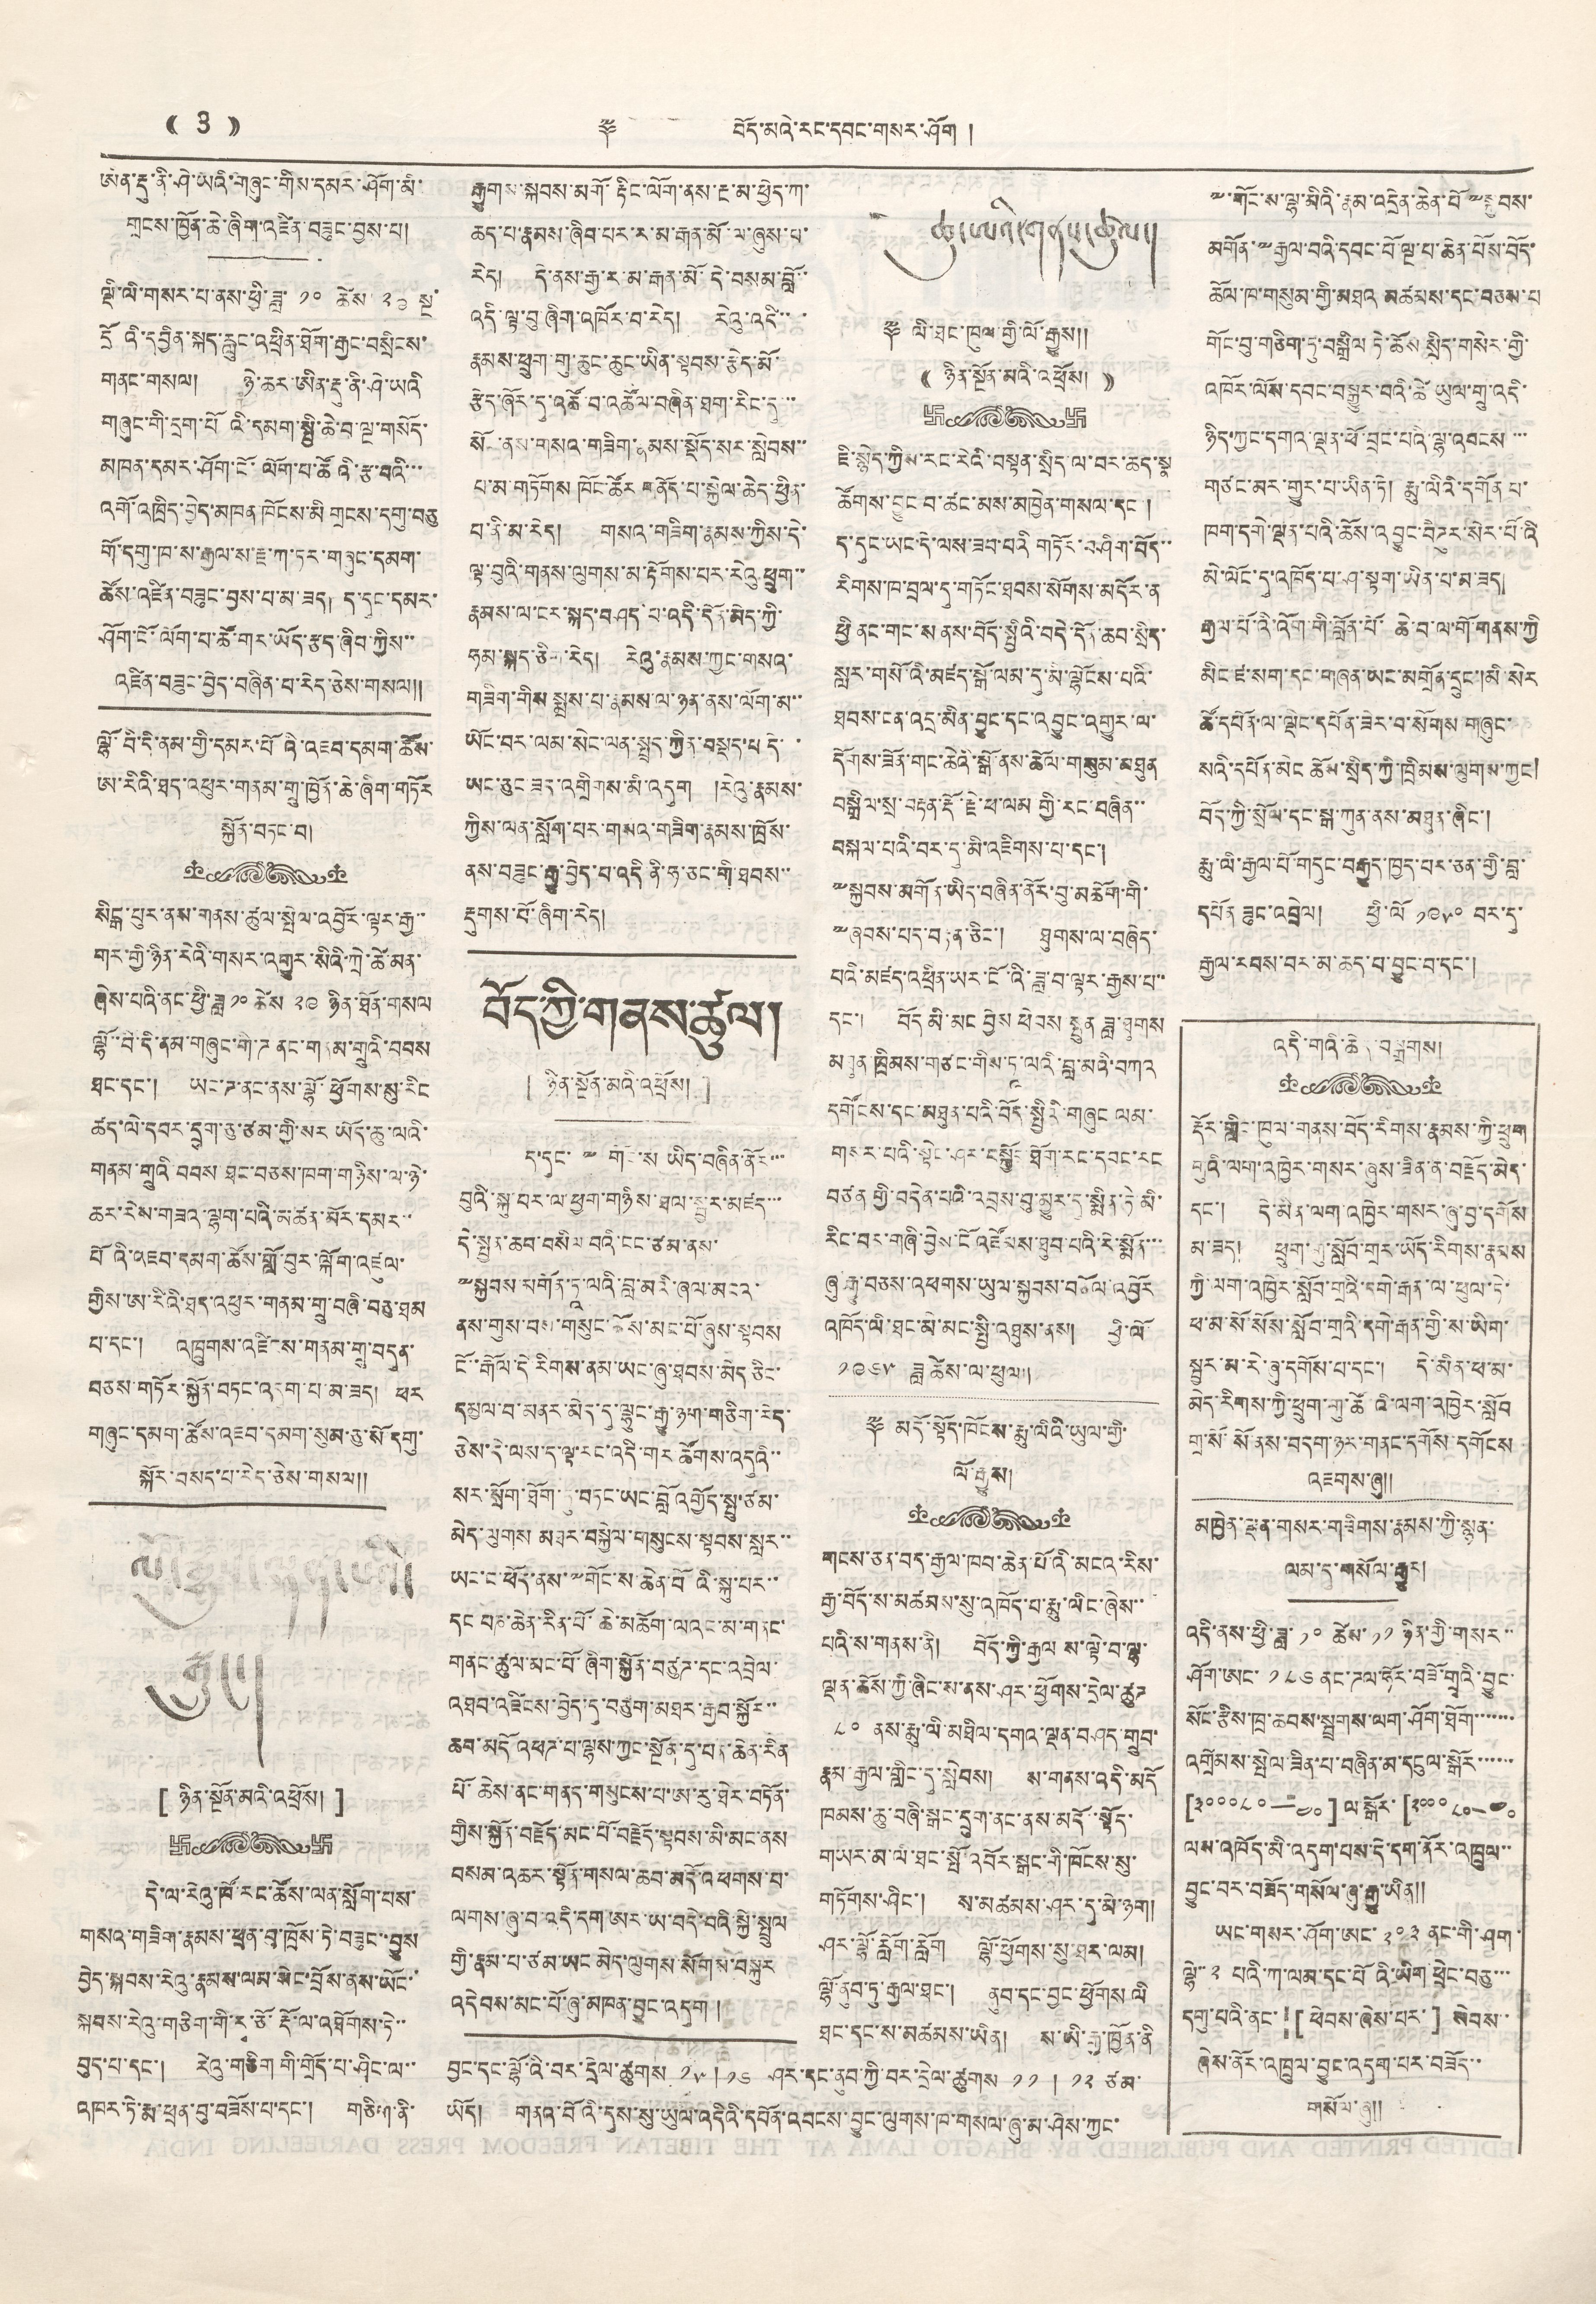(( 3 )) ༈ བོད་མིའི་རང་དབང་གསར་ཤོག །
(( 3 )) ༈ བོད་མིའི་རང་དབང་གསར་ཤོག །
ཨིན་རྡུ་ནི་ཤ་ཡའི་གཞུང་གིས་དམར་ཤོག་མི་
གྲངས་ཁྱོན་ཆེ་ཞིག་འཛིན་བཟུང་བྱས་པ།
ལྡི་ལི་གསར་པ་ནས་ཕྱི་ཟླ་ ༡༠ ཚེས་ ༢༠ སྔ་
དྲོ འི་དབྱིན་སྐད་རླུང་འཕྲིན་ཐོག་རྒྱང་བསྲིངས་
གནང་གསལ། ཉེ་ཆར་ཨིན་རྡུ་ནི་ཤེ་ཡའི
གཞུང་གི་དྲག་པོའི་དམག་སྤྱི་ཆེ་བ་ལྔ་གསོད་
མཁན་དམར་ཤོག་ངོ་ལོག་པ་ཚོའི་རྩ་བའི་་་
འགོ་འཁྲིད་བྱེད་མཁན་ཁོངས་མི གྲངས་དགུ་བཅུ
གོ་དགུ་ཁ་ས་རྒྱལ་ས་རྗ་ཀ་ཏར་གཞུང་དམག་
ཚོས་འཛིན་བཟུང་བྱས་པ་མ་ཟད། ད་དུང་དམར་
ཤོག་ངོ་ལོག་པ་ཚོ་གར་ཡོད་རྩད་ཞིབ་ཀྱིས་་
འཛིན་བཟུང་བྱེད་བཞིན་པ་རེད་ཅེས་གསལ།།
ལྷོ་བི་དི་ནམ་གྱི་དམར་པོའི་འཇམ་དམག་ཚོས་
ཨ་རིའི་ཐད་འཕུར་གནམ་གྲུ་ཁྱོན་ཆེ་ཞིག་གཏོར
སྐྱོན་བཏང་བ།
སངྒ་པུར་ནས་གནས་ཚུལ་སྤེལ་འབྱོར་ལྟར་རྒྱ་་
གར་གྱི་ཉིན་རེའི་གསར་འགྱུར་སིའི་ཀྲི་ཚེ་མན་
ཞེས་པའི་ནང་ཕྱི་ཟླ ༡༠ ཚེས་ ༢༩ ཉིན་ཐོག་གསལ
ལྷོ་་བི་དི་ནམ་གཞུང་གི་ཌ ནང་གནམ་གྲུའི་བབས
ཐང་དང་། ཡང་ཌ་ནང་ནས་ལྷོ་ཕྱོགས་སུ་རིང
ཚད་ལེ་དབར་དྲུག་ཅུ་ཙམ་གྱི་སར ཡོད་ཆུ་ལའི་
གནམ་གྲུའི་བབས་ཐང་བཅས་ཁག་གཉིས་ལ་ཉེ་
ཆར་རེས་གཟའ་ལྷག་པའི་མཚན་མོར་དམར་་
པོའི་འཇབ་དམག་ཚོས་གློ་བུར་ལྐོག་འཛུལ་
གྱིས་ཨ་རིའི་ཐད་འཕུར་གནས་གྲུ་བཞི་བཅུ་ཐམ
པ་དང་། འཁྲུགས་འཛིངས་གནས་གྲུ་བདུན་
བཅས་གཏོར་སྐྱོན་བཏང་འདུག་པ་མ་ཟད། ཕར
གཞུང་དམག་ཚོས་འཇབ་དམག་སུམ་ཅུ་སོ་དགུ་
སྐོར་བསད་པ་རེད་ཅེས་གསལ།།
ལོ་རྒྱུས་ལྡན་པའི་
སྒྲུང་།
[ ཉིན་སྔོན་མའི་འཕྲོས། ]
དེ་ལ་རེའུ་ཁོ་རང་ཚོས་ལན་སློག་པས་
གསའ་གཟིག་རྣམས་ཕྲན་བུ་ཁྲོས་ཏེ་བཟུང་་བྱུས
བྱེད་སྐབས་རེའུ་རྣམས་ལམ་སེང་བྲོས་ནས་ཡོང་
སྐབས་རེའུ་གཅིག་གི་རྭ་ཅོ་རྡོ་ལ་འཐོགས་ཏེ་་
བུད་པ་དང་། རེའུ་གཅིག གི་གྲོད་པ་ཤིང་ལ་་
འཁར་ཏེ་རྨ་ཕྲན་བུ་བཟོས་པ་དང་། གཅིག་ནི་
རྒྱུགས་སྐབས་མགོ་རྟོང་ལོག་ནས་རྔ་མ་ཕྱེད་ཀ་
ཆད་པ་རྣམས་ཞིབ་པར་ར་མ་རྒན་མོ་ལ་ཞུས་པ་
རེད། དེ་ནས་རྒྱ་ར་མ་རྒན་མོ་དེ་བསམ་བློ་་
འདི་ལྟ་བུ་ཞིག་འཁོར་བ་རེད། རེའུ་འདི་་་
རྣམས་ཕྲུག་གུ་ཆུང་ཆུང་ཡིན་སྟབས་རྩེད་མོ་
རྩེད་ཞོར་དུ་འཚོ་བ་འཚོལ་བཞིན་ཐག་རིང་དུ་་་
སོང་ནས་གསའ་གཟིག་རྣམས་སྡོད་སར་སླེབས་་
པ་མ་གཏོགས ཁོང་ཚོར་གནོད་པ་སྐྱེལ་ཆེད་ཕྱིན་
པ་ནི་མ་རེད། གསའ་གཟིག་རྣམས་ཀྱིས་དེ་
ལྟ་བུའི་གནས་ལུགས་མ་རྟོགས་པར་རེའུ ཕྲུག་་
རྣམས་ལ་ངར་སྐད་བཤད་པ་འདི་དོན་མེད་ཀྱི་
ཧམ་སྐད་ཅིག་རེད། རེའུ་རྣམས་ཀྱང་གསའ་
གཟིག་གིས སྨྲས་པ་རྣམས་ལ་ཉན་ནས་ལོག་མ་་
ཡོང་བར་ལམ་སེང་ལན་སྤྲད་ཀྱིན་བསྡད་པ་དེ་་
ཡང་ཅུང་ཟད་འགྲིགས་མི་འདུག །རེའུ་རྣམས་
ཀྱིས་ལན་སློག་པར་གསའ་གཟིག་རྣམས་ཁྲོས་
ནས་བཟུང་རྒྱུ་བྱེད་པ་འདི་ནི་ཧ་ཅང་གི་ཐབས་་
རྡུགས་པོ་ཞིག་རེད།
བོད་ཀྱི་གནས་ཚུལ།
[ ཉིན་སྔོན་མའི་འཕྲོས། ]
ད་དུང་༸གོང་ས ཡིད་བཞིན་ནོར་་་
བུའི་སྐུ་པར་ལ་ཕྱག་གཉིས་ཐལ་སྦྱར་མཛད་་་
དེ་སྤྱད་ཆབ་བསིལ བའི་ངང་ཙམ་ནས་
༸སྐྱབས་མགོན་ཏྰ་ལའི་བླ་མའི་ཞལ་མངའ་
ནས་གུས་བས་གསུང་ཆོས་མང་པོ་ཞུས་སྟབས
ངོ་རྒོལ་དེ རིགས་ནམ་ཡང་ཞུ་ཐབས་མེད་ཅིང་
དམྱལ་བ་མནར་མེད་དུ་ལྷུང་རྒྱུ་ཉག་གཅིག་རེད་
ཅེས་དེ་ལས་ད་ལྟ་རང་འདི་གར་ཚོགས་འདུའི་་་
སར་སྲོག་ཐོག་ཏུ་བཏང་ཡང་བློ འགྱོད་སྤུ་ཙམ་
མེད་ལུགས མཐར་བསྐྱེལ་གསུངས་སྟབས་སླར་་
ཡང་ང་ཕོད་ནས་༸གོང་ས་ཆེན་པོའི་སྐུ་པར་་
དང པཎ་ཆེན་རིན་པོ་ཆེ་མཆོག་ལའང་མ་གནང་
གནང་ཚུལ་མང་པོ་ཞིག་སྐྱོན་བཙུཌ་དང་འབྲེལ་
འཐབ་འཛིངས་བྱེད་དུ་བཙུག་མཐར་རྒྱབ་སྐྱོར་་
ཆབ་མདོ འཕཌ་པ་ལྷས་ཀྱང་སྔོན་དུ་པན་ཆེན་རིན
པོ་ཆེས་ནང་གནད་གསུངས་པ་ཨ་རུ་ཐེར་བཏོན་
གྱིས་སྐྱོན་བརྗོད་མང་པོ་བརྗོད་སྟབས་མི་མང་ནས
བསམ་འཆར་སྟོན་གསལ་ཆབ་མདོ་འཕགས་པ་
ལགས་ཞུ་བ་འདི་དག་ཨར་ཡ་བདེ་བའི་སྐྱེ་སྤྲུལ
གྱི་རྣམ་པ་ཙམ་ཡང་མེད་ལུགས་སོགས་བསྐུར
འདེབས་མང་པོ་ཞུ་མཁན་བྱུང་འདུག །
ཆུ་ཨའི་གནས་ཚུལ།
༈ ལི་ཐང་ཁུལ་གྱི་ལོ་རྒྱུས།།
(( ཉིན་སྔོན་མའི་འཕྲོས། ))
ཇི་སྙེད་ཀྱིས་རང་རེའི་བསྟན་སྲིད་ལ་བར་ཆད་སྣ
ཚོགས་བྱུང་བ་ཚང་མས་མཁྱེན་གསལ་དང་།
ད་དུང་ཡང་དེ་ལས་ཟབ་པའི གཏོར་བཤིག་བོད་་
རིགས་ཁ་བྲལ་དུ་གཏོང་ཐབས་སོགས་མདོར་ན
ཕྱི ནང་གང་ས་ནས་བོད་སྤྱིའི་བདེ་དོན་ཆབ་སྲིད་
སླར་གསོའི་འཛད་སྒོ་ལམ་དུ་མི་ལྷོངས་པའི་
ཐབས་ངན་འདྲ་མིན་བྱུང་དང་འབྱུང་འགྱུར་ལ་
དོགས་ཟོན་གང་ཆེའི་སྒོ་ནས་ཆོལ་གསུམ་མཐུན
བསྒྲིལ་སྲ་བརྟན་རྡོ་རྗེ་ཕ་ལམ གྱི་རྣག་བཞིན་་
བསྐལ་པའི་བར་དུ་མི་འཇིགས་པ་དང་།
༸སྐྱབས་མགོན་ཡིད་བཞིན་ནོར་བུ་མཆོག་གི་
༸ཞབས་པད་བརྟན་ཅིང་། ཐུགས་ལ་བཞེད་
པའི་མཛད་འཕྲིན་ཡར་ངོ་འི་ཟླ་བ་ལྟར་རྒྱས་པ་་
དང་། བོད མི་མང བྱེས ཕེབས སྤུན ཟླ་ཐུགས
མཐུན ཁྲིམས་གཙང་གིས་ཏྰ་ལའི་བླ་མའི་བཀའ
དགོངས་དང་མཐུན་པའི་བོད་སྤྱིའི་གཞུང ལམ་
གསར་པའི་སྟེང་ཤར་བསྐྱོད་ཐོག་རང་དབང་རང
བཙན གྱི་བདེན་པའི་འབྲས་བུ་མྱུར་དུ་སྨིན་ཏེ་མི་
རིང་བར་གཞི་བྱེས་ངོ་འཛོམས་ཐུབ་པའི་རེ་སྨོན་་་
ཞུ་རྒྱུ་བཅས་འཕགས་ཡུལ་སྐྱབས་བཅོལ་འབྱོར
འཁོད་ལི་ཐང་མི་མང་སྤྱི་འཐུས་ནས། ཕྱི་ལོ
༡༩༦༥ ཟླ་ཚེས་ལ་ཕུལ།།
༈ མདོ་སྟོད་ཁོངས་རྨུ་ལིའི་ཡུལ་གྱི་
ལོ་རྒྱུས།
གངས་ཅན་བད་རྒྱལ་ཁབ་ཆེན་པོའི་མངའ་རིས་
རྒྱ་བོད་ས་མཚམས་སུ་འཁོད་པ་རྨུ་ལིང་ཞེས་་
པའི་ས་གནས་ནི། བོད་ཀྱི་རྒྱལ ས་ལྟེ་བ་ལྷ་
ལྡན་ཆོས་ཀྱི་ཞིང་ས་ནས་ཤར་ཕྱོགས་དྲེལ་ཚུཌ
༥༠ ནས་རྨུ་ལི་མཐིལ་དགའ་ལྡན་བཤད་གྲུབ་
རྣམ་རྒྱལ་གླིང་དུ་སླེབས། ས་གནས་འདི་མདོ
ཁམས་ཆུ་བཞི་སྒང་དྲུག་ནང་ནས་མདོ་་སྟོད་
གཡར་མ་ལི་ཐང་སྤོ་འབོར་སྒང་གི་ཁོངས་སུ་
གཏོགས་ཤིང་། ས་མཚམས་ཤར་དུ་མི་ཉག།
ཤར་ལྷོ་རློག་རློག ལྷོ་ཕྱོགས་སུ་ཐར་ལམ།
ལྷོ་ནུབ་ཏུ་རྒྱལ་ཐང་། ནུབ་དང་བྱང་ཕྱོགས ལི
ཐང་དང་ས་མཚམས་ཡིན། ས་ཡི་རྒྱ་ཁྱོན་ནི
བྱང་དང་ལྷོ་འི་བར་དྲེལ་ཚུགས ༡༥ ། ༡༦ ཤར་ནུབ་ཀྱི་བར་དྲེལ་ཚུགས ༡༡ ། ༡༢ ཙམ་
ཡོད། གནའ་བོའི་དུས་སུ་ཡུལ་འདིའི་དཔོན་འབངས་བྱུང་ལུགས་ཁ་གསལ་ཞུ་མ་ཤེས་ཀྱང་
༸གོང་ས་ལྷ་མིའི་རྣམ་འདྲེན་ཆེན་པོ༸སྐྱབས་
མགོན་༸རྒྱལ་བའི་དབང་པོ་ལྔ་པ་ཆེན་པོས་བོད་
ཆོལ་ཁ་གསུམ་གྱི་མཐའ མཚམས་དང་བཅས་པ
གོང་བུ་གཅིག་ཏུ་བསྒྲིལ ཏེ་ཆོས་སྲིད་གསེར་གྱི་
འཁོར་ལོས་དབང་བསྒྱུར་བའི་ཚེ ཡུལ་གྲུ་འདི་
ཉིད་ཀྱང་དགའ་ལྡན་ཕོ་བྲང་པའི་ལྷ་འབངས་་་
གཙང་མར་གྱུར་པ་ཡིན་ཏེ། རྨུ་ལིའི་དགོན པ་
ཁག་དགེ་ལྡན་པའི་ཆོས་འབྱུང་བེེཌུར་སེར་པོའི
མེ་ལོང་དུ་འཁོད་པ་ཤ་སྟག་ཡིན་པ་མ་ཟད།
རྒྱལ་པོའི་འོག་གི་བློན་པོ་ཆེ་བ་ལ་གོ་གནས་ཀྱི
མིང་ཛ་སག་དང་གཞན་ཡང་མགྲོན་དྲུང་།མི་སེར
ཚོ་དཔོན་ལ་ལྡིང་དཔོན་ཟེར་བ་སོགས་གཞུང་
སའི་དཔོན་མིང ཆོས་སྲིད་ཀྱི་ཁྲིམས་ལུགས་ཀྱང།
བོད་ཀྱི་སྲོལ་དང་སྒ་ཀུན་ནས་མཐུན་ཞིང་།
རྨུ་ལི་རྒྱལ་པོ་གདུང་བརྒྱུད་ཁྱད་པར་ཅན་གྱི་བླ་
དཔོན ཟུང་འབྲེལ། ཕྱི་ལོ ༡༩༥༠ བར་དུ་
རྒྱལ་རབས་བར་མ་ཆད་པ་བྱུང་བ་དང་།
འདི་གའི་ཆེན་བསྒྲགས།
རྡོར་གླིང་ཁུལ་གནས་བོད་རིགས་རྣམས་ཀྱི་ཕྲུག
གུའི་ལག་འཁྱེར་གསར་ཞུས་ཟིན་ན་བརྗོད་མེད་
དང་། དེ་མིན་ལག་འཁྱེར་གསར་ཞུ་བྱ་དགོས
མ་ཟད། ཕྲུག་གུ་སློབ་གྲར་ཡོད་རིགས་རྣམས
ཀྱི་ལག་འཁྱེར་སློབ་གྲའི་དགེ་རྒན་ལ་ཕུལ་ཏེ་
ཕ་མ་སོ་སོས་སློབ་གྲའི་དགེ་རྒན་གྱི་ས་ཡིག་
སྦྱར་མ་རེ་ཞུ་དགོས་པ་དང་། དེ་མིན་ཕ་མ་
མེད་རིགས་ཀྱི་ཕྲུག་གུ་ཚོའི་ལག་འཁྱེར་སློབ
གྲ་སོ་སོ་ནས་བདག་ཉར་གནང་དགོས་དགོངས
འཇགས་ཞུ།།
མཁྱེན་ལྡན་གསར་གཟིགས་རྣམས་ཀྱ་སྙན་
ལམ་དུ་གསོལ་རྒྱུར།
འདི་ནས་ཕྱི་ཟླ་ ༡༠ ཚེས་ ༡༡ ཉིན་གྱི་གསར་་
ཤོག་ཨང་ ༡༨༦ ནང་ཌལ་ཧོར་བཟི་གྲྭའི་བྱུང་
སོང་རྩིས་ཁྲ་ཆབས་སྦྲགས་ལག་ཤོག་ཐོག་་་་་་་
འགྲེམས་སྤེལ་ཟིན་པ་བཞིན་མ་དངུལ་སྒོར་་་་་་
[༣༠༠༠༨༠—༤༠] ལ་སྒོར་ [༢༠༠༠༠༨༠—༤༠
ལས་འཁོད་མི་འདུག་པས་དེ་དག་ནོར་འཁྲུལ་་
བྱུང་བར་བཟོད་གསོལ་ཞུ་རྒྱུ་ཡིན།།
ཡང་གསར་ཤོག་ཨང་ ༢༠༣ ནང་གི་ཤག
ལྷེ་་ ༢ པའི་ཀ་ལམ་དང་པོའི་ཡིག ཕྲེང་བཅུ་་་
དགུ་པའི་ནང་།[ ཕེབས་ཞེས་པར་ ] སེམས་་
ཞེས་ནོར་འཁྲུལ་བྱུང་འདུག་པར་བཟོད་་
གསོལ་ཞུ།།
